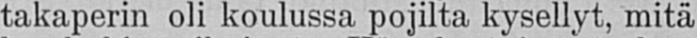takaperin oli koulussa pojilta kysellyt, mitä
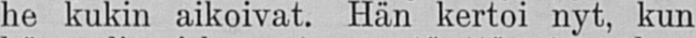he kukin aikoivat. Hän kertoi nyt, kun
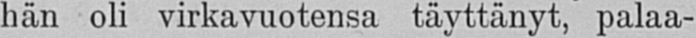hän oli virkavuotensa täyttänyt, palaa-
